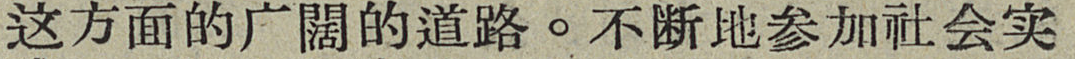这方面的广闊的道路。不断地参加社会实
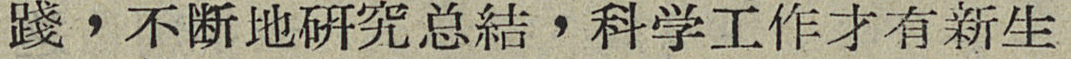踐，不断地研究总結，科学工作才有新生
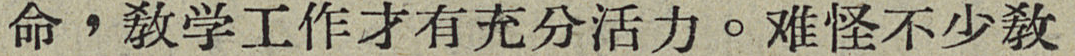命，敎学工作才有充分活动。难怪不少敎
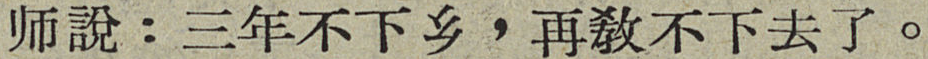师說：三年不下乡，再敎不下去了。
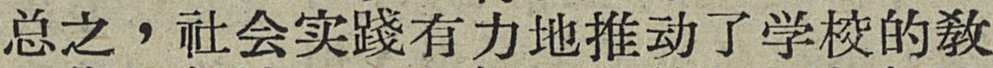总支，社会实踐有力地推动了学校的敎
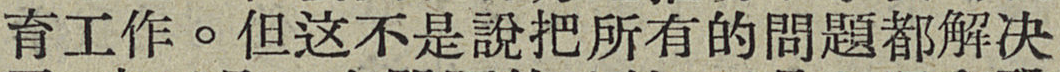育工作。但这不是說把所有的問題都解决
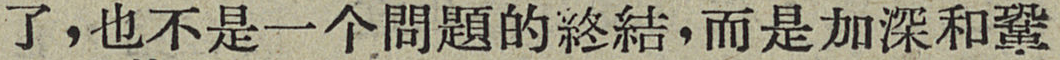了，也不是一个問題的終結，而是加深和鞏
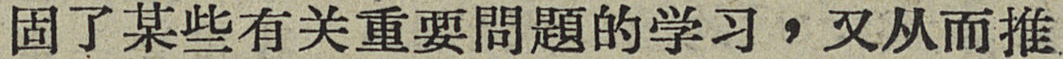固了某些有关重要問題的学习，又从而推
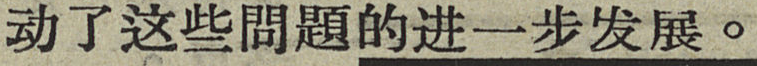动了这些問題的进一步发展。
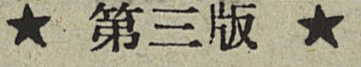★ 第三版 ★
